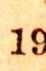19
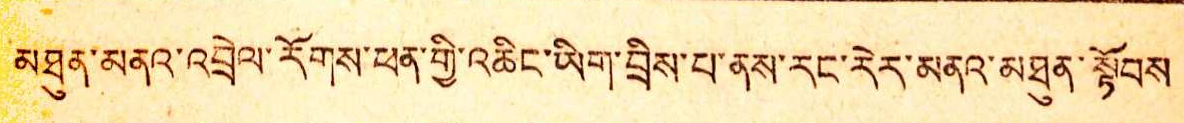མཐུན་མནའ་འབྲེལ་རོགས་ཕན་གྱི་འཆིང་ཡིག་བྲིས་པ་ནས་རང་རེར་མནའ་མཐུན་སྟོབས
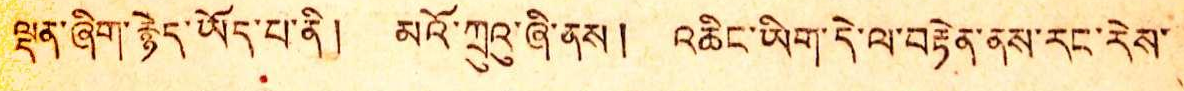ལྡན་ཞིག་རྙེད་ཡོད་པ་ནི ། མའོ་ཀྲུའུ་ཞི་ནས ། འཆིང་ཡིག་དེ་ལ་བརྟེན་ནས་རང་རེས་
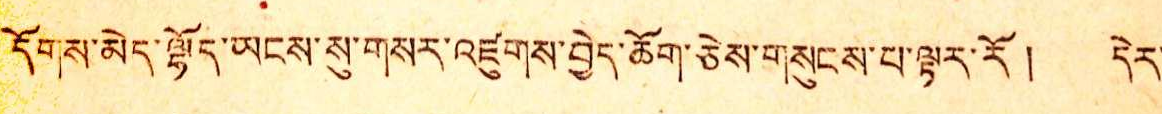དོགས་མེད་ལྷོད་ཡངས་སུ་གསར་འཛུགས་བྱེད་ཆོག་ཅེས་གསུངས་པ་ལྟར་རོ ། དེར་
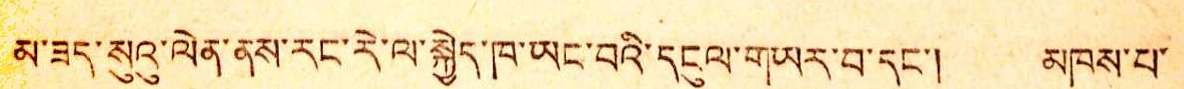མ་ཟད་སུའུ་ལེན་ནས་རང་རེ་ལ་སྐྱེད་ཁ་ཡང་བའི་དངུལ་གཡར་བ་དང་། མཁས་པ་
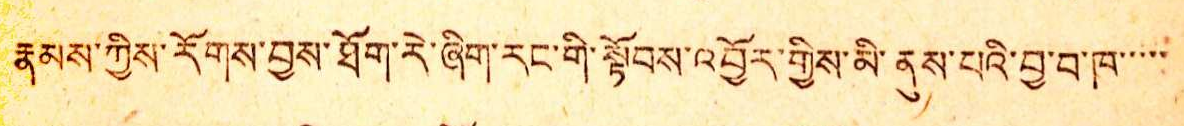རྣམས་ཀྱིས་རོགས་བྱས་ཐོག་རེ་ཞིག་རང་གི་སྟོབས་འབྱོར་གྱིས་མི་ནུས་པའི་བྱ་བ་ཁ་་་་་
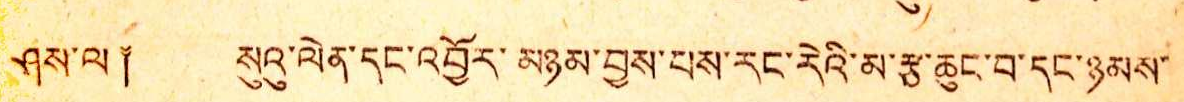ཤས་ལ ༐ སུའུ་ལེན་དང་འབྱོར་མཉམ་བྱས་པས་རང་རེའི་མ་རྩ་ཆུང་བ་དང་ཉམས་
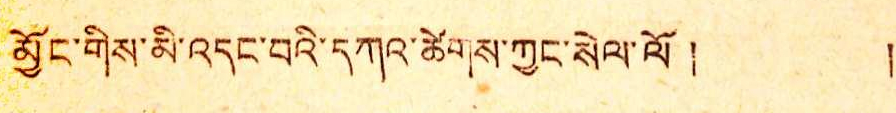མྱོང་གིས་མི་འདང་བའི་དཀའ་ཚེགས་ཀྱང་སེལ་ལོ ། །
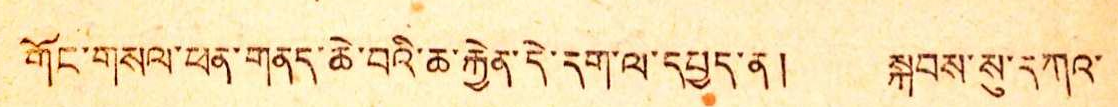གོང་གསལ་ཕན་གནད་ཆེ་བའི་ཆ་རྐྱེན་དེ་དག་ལ་དཔྱད་ན ། སྐབས་སུ་དཀའ་
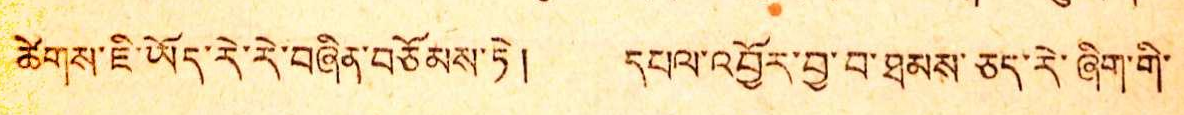ཚེགས་ཇི་ཡོད་རེ་རེ་བཞིན་བཅོམས་ཏེ ། དཔལ་འབྱོར་བྱས་བ་ཐམས་ཅད་རེ་ཞིག་གི་
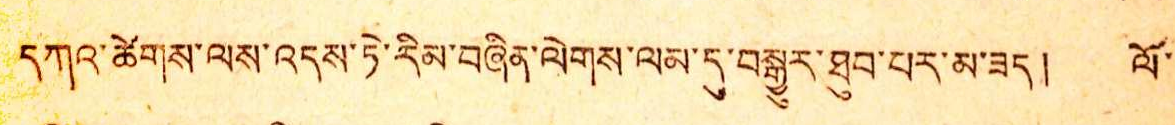དཀའ་ཚེགས་ལས་འདས་ཏེ་རིམ་བཞིན་ལེགས་ལམ་དུ་བསྒྱུར་ཐུབ་པར་མ་ཟད ། ལོ་
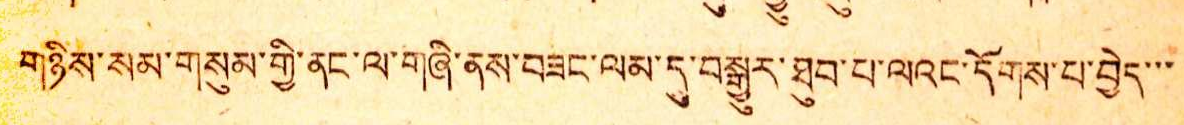གཉིས་སམ་གསུམ་གྱི་ནང་ལ་བཞི་ནས་བཟང་འམ་དུ་བསྒྱུར་ཐུབ་པ་ལའང་དོགས་པ་བྱེད་་་
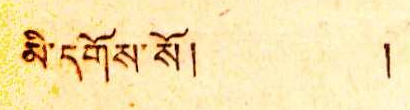མི་དགོས་སོ ། །
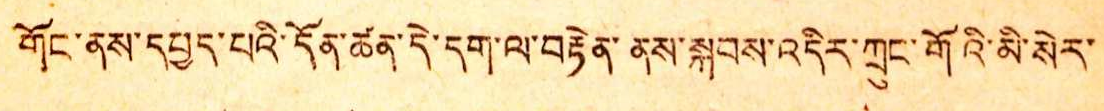གོང་ནས་དཔྱད་པའི་དོན་ཚན་དེ་དག་ལ་བརྟེན་ནས་སྐབས་འདིར་ཀྲུང་གོའི་མི་སིར་
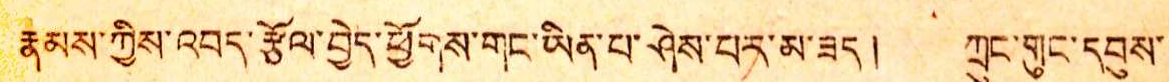རྣམས་ཀྱིས་འབད་རྩོལ་བྱེད་ཕྱོགས་གང་ཡིན་པ་ཤེས་པར་མ་ཟད ། ཀྲུང་གུང་དབུས་
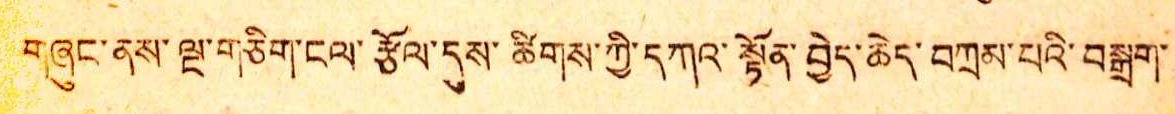བཞུང་ནས་ལྔ་གཅིག་ངལ་རྩོལ་དུས་ཚིགས་ཀྱི་དཀའ་སྟོན་བྱེད་ཆེད་བཀྲམ་པའི་བསྒྲག་
